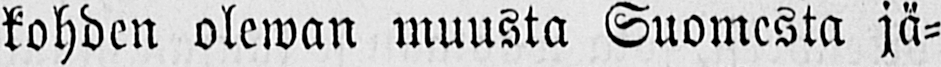kohden olewan muusta Suomesta jä-
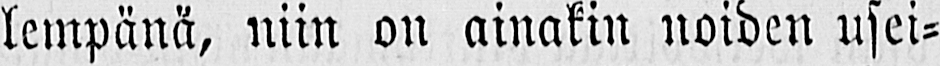lempänä, niin on ainakin noiden usei-
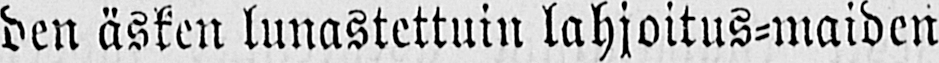den äsken lunastettuin lahjoitus-maiden
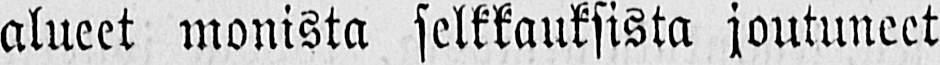alueet monista selkkauksista joutuneet
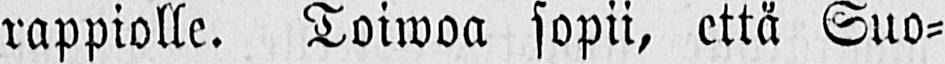rappiolle. Toiwoa sopii, että Suo-
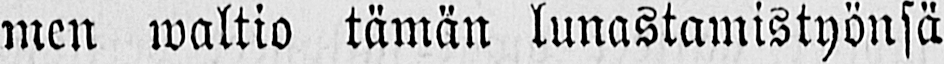men waltio tämän lunastamistyönsä
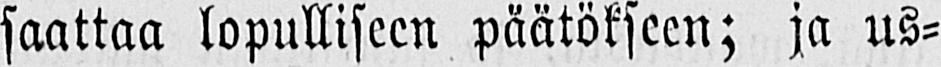saattaa lopulliseen päätökseen; ja us-
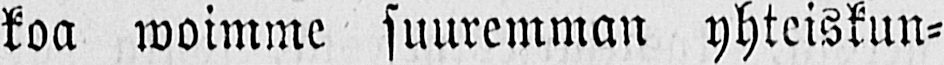koa woimme suuremman yhteiskun-
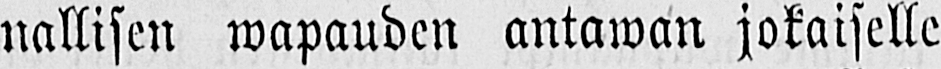nallisen wapauden antawan jokaiselle
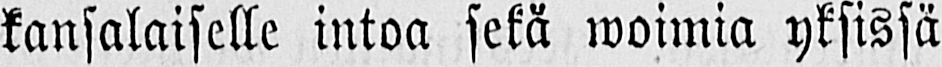kansalaiselle intoa sekä woimia yksissä
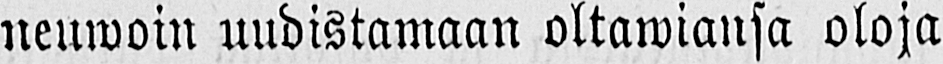neuwoin uudistamaan oltawiansa oloja
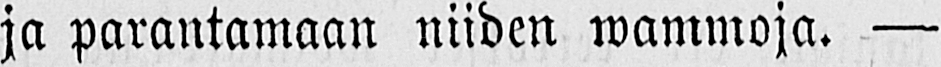ja parantamaan niiden wammoja. —
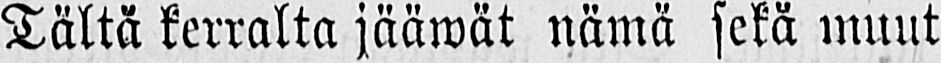Tältä kerralta jääwät nämä sekä muut
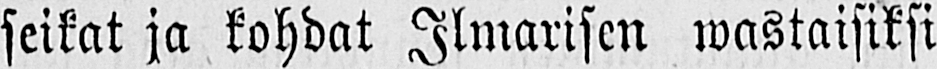seikat ja kohdat Ilmarisen wastaisiksi
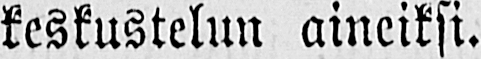keskustelun aineiksi.
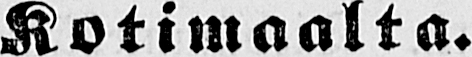Kotimaalta.
